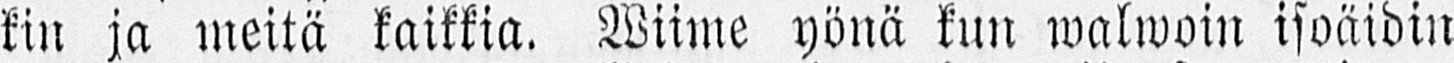kin ja meitä kaikkia. Wiime yönä kun walwoin isoäidin
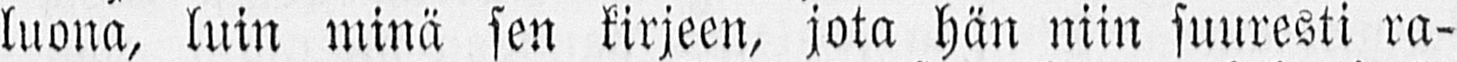luona, luin minä sen kirjeen, jota hän niin suuresti ra-
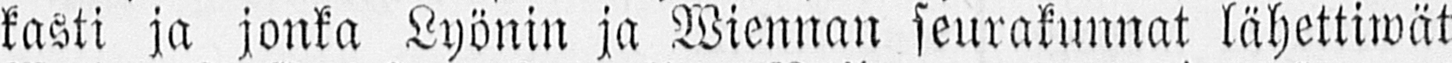kasti ja jonka Lyönin ja Wiennan seurakunnat lähettiwät
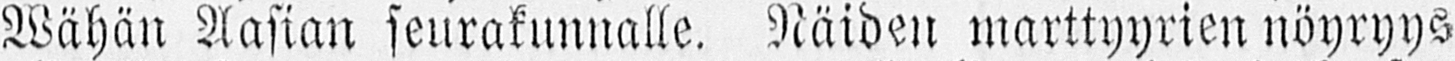Wähän Aasian seurakunnalle. Näiden marttyyrien nöyryys
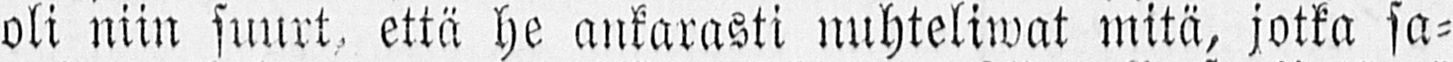oli niin suurt, että he ankarasti nuhteliwat mitä, jotka sa-
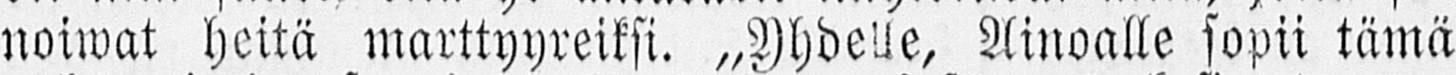noiwat heitä marttyyreiksi. „Yhdelle, Ainoalle sopii tämä
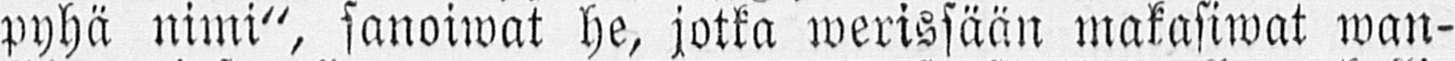pyhä nimi", sanoiwat he, jotka werissään makasiwat wan-
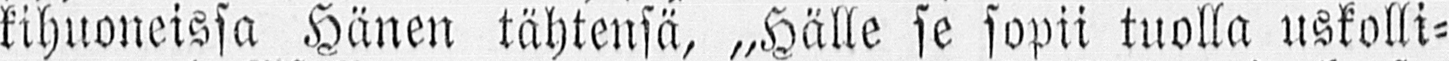kihuoneissa Hänen tähtensä, „Hälle se sopii tuolla uskolli-
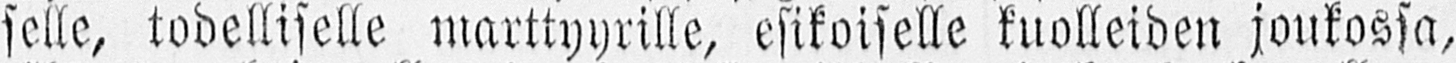selle, todelliselle marttyyrille, esikoiselle kuolleiden joukossa,
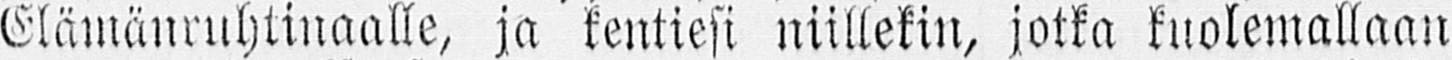Elämänruhtinaalle, ja kentiesi niillekin, jotka kuolemallaan
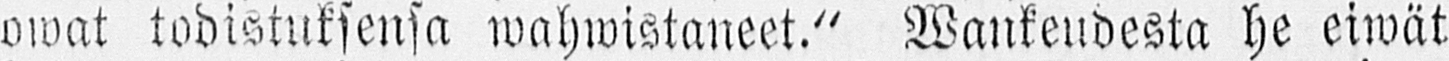owat todistuksensa wahwistaneet." Wankeudesta he eiwät
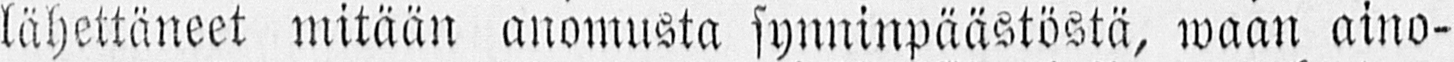lähettäneet mitään anomusta synninpäästöstä, waan aino-
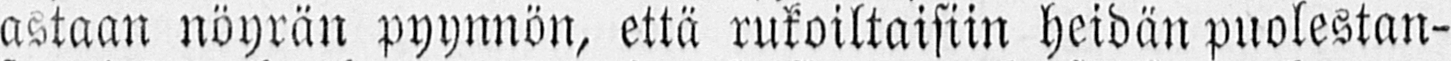astaan nöyrän pyynnön, että rukoiltaisiin heidän puolestan-
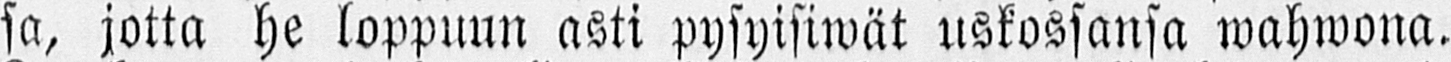sa, jotta he loppuun asti pysyisiwät uskossansa wahwona.
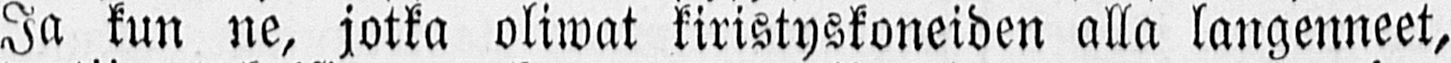Ja kun ne, jotka oliwat kiristyskoneiden alla langenneet,
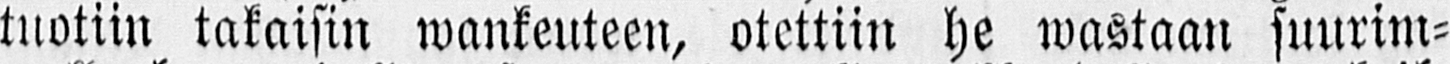tuotiin takaisin wankeuteen, otettiin he wastaan suurim-
